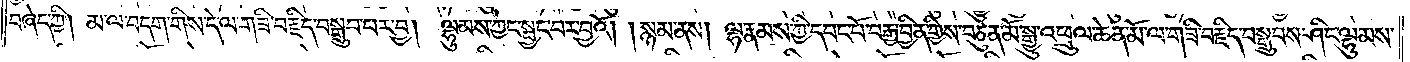བཞེད་ཀྱི། མ་ལ་བདག་གིས་དེ་ལ་གཟི་བརྗིད་བསྒྲུབ་པར་བྱ། ལྷུམས་ཀྱང་སྦྱང་བར་བྱའོ། །སྙམ་ནས། ལྷ་རྣམས་ཀྱི་དབང་པོ་བརྒྱ་བྱིན་གྱིས་བཙུན་མོ་སྒྱུ་འཕྲུལ་ཆེན་མོ་ལ་གཟི་བརྗིད་བསྒྲུབས་ཤིང་ལྷུམས་
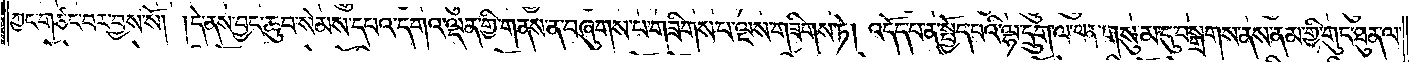ཀྱང་གཙང་བར་བྱས་སོ། །དེ་ནས་བྱང་ཆུབ་སེམས་དཔའ་དགའ་ལྡན་གྱི་གནས་ན་བཞུགས་པ་གཟིགས་པ་ལྔས་གཟིགས་ཏེ། འདོད་པ་ན་སྤྱོད་པའི་ལྷ་དྲུག་ལ་ལན་གསུམ་དུ་བསྒྲགས་ནས་ནམ་གྱི་གུང་ཐུན་ལ་
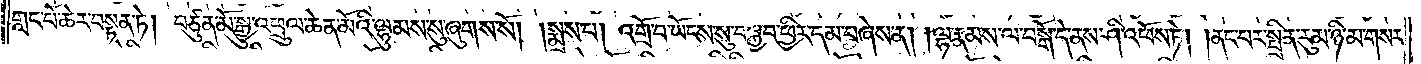གླང་པོ་ཆེར་བསྟན་ཏེ། བཙུན་མོ་སྒྱུ་འཕྲུལ་ཆེན་མོའི་ལྷུམས་སུ་ཞུགས་སོ། །སྨྲས་པ། འགྲོ་བ་ཡོངས་སུ་བསྐྱབ་ཕྱིར་དམ་བཞེས་ན། །ལྷ་རྣམས་ལ་བསྒོ་དེ་ནས་ཤི་འཕོས་ཏེ། །ནང་པར་སྤྲིན་རུམ་ཉི་མ་གསར་
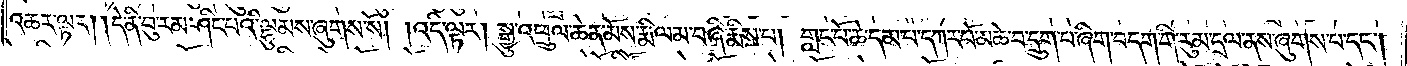འཆར་ལྟར། །དེ་ནི་བུ་རམ་ཤིང་པའི་ལྷུམས་ཞུགས་སོ། །འདི་ལྟར། སྒྱུ་འཕྲུལ་ཆེན་མོས་རྨི་ལམ་བཞི་རྨིས་པ། གླང་པོ་ཆེ་དམ་པ་དཀར་པོ་མཆེ་བ་དྲུག་པ་ཞིག་བདག་གི་རུམ་དྲལ་ནས་ཞུགས་བ་དང༌།
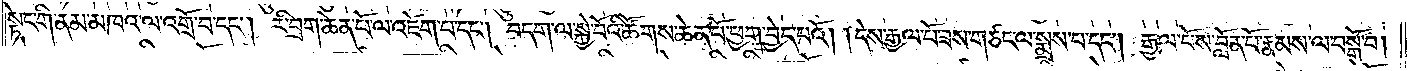སྟེང་གི་ནམ་མཁའ་ལ་འགྲོ་བ་དང༌། རི་བྲག་ཆེན་པོ་ལ་འཛེག་པ་དང༌། བདག་ལ་སྐྱེ་བོའི་ཚོགས་ཆེན་པོ་ཕྱག་བྱེད་པའོ། །དེས་རྒྱལ་པོ་ཟས་གཙང་ལ་སྨྲས་པ་དང༌། རྒྱལ་པོས་བློན་པོ་རྣམས་ལ་བསྒོ་བ།
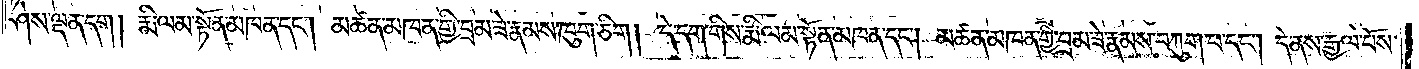ཤེས་ལྡན་དག །རྨི་ལམ་སྟོན་མཁན་དང༌། མཚན་མཁན་གྱི་བྲམ་ཟེ་རྣམས་ཁུག་ཅིག། དེ་དག་གིས་རྨི་ལམ་སྟོན་མཁན་དང༌། མཚན་མཁན་གྱི་བྲམ་ཟེ་རྣམས་བཀུག་པ་དང༌། དེ་ནས་རྒྱལ་པོས་
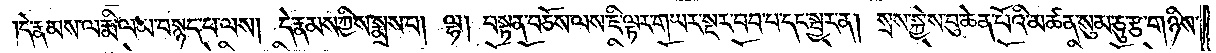དེ་རྣམས་ལ་རྨི་ལམ་བསྙད་པ་ལས། དེ་རྣམས་ཀྱིས་སྨྲས་པ། ལྷ། བསྟན་བཅོས་ལས་ཇི་ལྟར་གཡར་སྔར་བབ་པ་དང་སྦྱར་ན། སྲས་སྐྱེས་བུ་ཆེན་པོའི་མཚན་སུམ་ཅུ་རྩ་གཉིས་
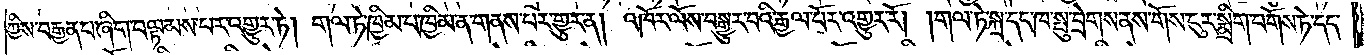ཀྱིས་བརྒྱན་པ་ཞིག་བལྟམས་པར་འགྱུར་ཏེ། གལ་ཏེ་ཁྱིམ་པ་ཁྱིམ་ན་གནས་པར་གྱུར་ན། འཁོར་ལོས་བསྒྱུར་བའི་རྒྱལ་པོར་འགྱུར་རོ། །གལ་ཏེ་སྐྲ་དང་ཁ་སྤུ་བྲེགས་ནས་གོས་ངུར་སྨྲིག་བགོས་ཏེ་དད་
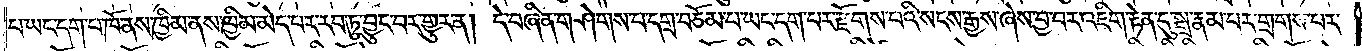པ་ཡང་དག་པ་ཁོ་ནས་ཁྱིམ་ནས་ཁྱིམ་མེད་པར་རབ་ཏུ་བྱུང་བར་གྱུར་ན། དེ་བཞིན་གཤེགས་པ་དགྲ་བཅོམ་པ་ཡང་དག་པར་རྫོགས་པའི་སངས་རྒྱས་ཞེས་བྱ་བར་འཇིག་རྟེན་དུ་སྒྲ་རྣམ་པར་གྲགས་པར་
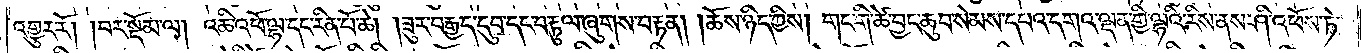འགྱུར་རོ། །བར་སྡོམ་ལ། འཆི་འཕོ་ལྷ་དང་རིན་པོ་ཆེ། །ཟུར་བརྒྱད་དུབ་དང་བརྟུལ་ཞུགས་བརྟན། །ཆོས་ཉིད་ཀྱིས། གང་གི་ཚེ་བྱང་ཆུབ་སེམས་དཔའ་དགའ་ལྡན་གྱི་ལྷའི་རིས་ནས་ཤི་འཕོས་ཏེ་
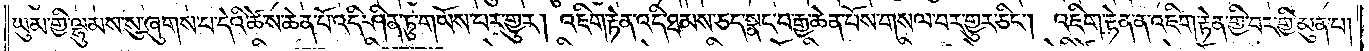ཡུམ་གྱི་ལྷུམས་སུ་ཞུགས་པ་དེའི་ཚེ་ས་ཆེན་པོ་འདི་ཤིན་ཏུ་གཡོས་པར་གྱུར། འཇིག་རྟེན་འདི་ཐམས་ཅད་སྣང་བ་རྒྱ་ཆེན་པོས་གསལ་བར་གྱུར་ཅིང༌། འཇིག་རྟེན་ན་འཇིག་རྟེན་གྱི་བར་གྱི་མུན་པ།
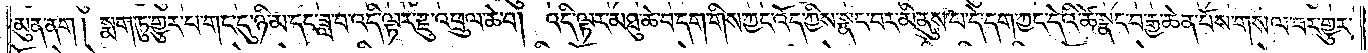མུན་ནག། སྨག་ཏུ་རྒྱུ་པ་གང་དུ་ཉི་མ་དང་ཟླ་བ་འདི་ལྟར་རྫུ་འཕྲུལ་ཆེ་བ། འདི་ལྟར་མཐུ་ཆེ་བ་དག་གིས་ཀྱང་འོད་ཀྱིས་སྣང་བར་མི་ནུས་པ་དེ་དག་ཀྱང་དེའི་ཚེ་སྣང་བརྒྱ་ཆེན་པོས་གསལ་བར་གྱུར་
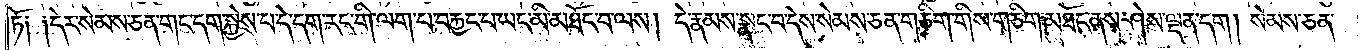ཏོ། །དེར་སེམས་ཅན་གང་དག་སྐྱེས་པ་དེ་དག་རང་གི་ལག་པ་བརྐྱང་པ་ཡང་མི་མཐོང་བ་ལས། དེ་རྣམས་སྣང་བ་དེས་སེམས་ཅན་གཅིག་གིས་གཅིག་མཐོང་ནས་ཤེས་ལྡན་དག །སེམས་ཅན་
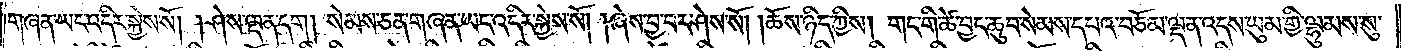གཞན་ཡང་འདིར་སྐྱེས་སོ། །ཤེས་ལྡན་དག །སེམས་ཅན་གཞན་ཡང་འདིར་སྐྱེས་སོ། །ཞེས་བྱ་བར་ཤེས་སོ། །ཆོས་ཉིད་ཀྱིས། གང་གི་ཚེ་བྱང་ཆུབ་སེམས་དཔའ་བཅོམ་ལྡན་འདས་ཡུམ་གྱི་ལྷུམས་སུ་
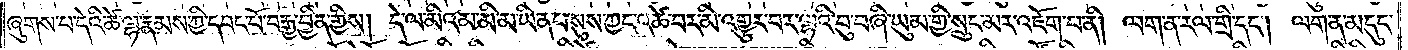ཞུགས་པ་དེའི་ཚེ་ལྷ་རྣམས་ཀྱི་དབང་པོ་བརྒྱ་བྱིན་གྱིས། དེ་ལ་མིའམ་མི་མ་ཡིན་པ་སུས་ཀྱང་འཚེ་བར་མི་འགྱུར་བར་ལྷའི་བུ་བཞི་ཡུམ་གྱི་སྲུང་མར་འཇོག་པ་ནི། ལག་ན་རལ་གྲི་དང༌། ལག་ན་མདུང་
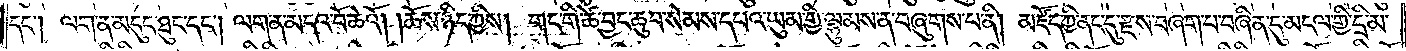དང༌། ལག་ན་མདུང་ཐུང་དང༌། ལག་ན་མདའ་བོ་ཆེའོ། །ཆོས་ཉིད་ཀྱིས། གང་གི་ཚེ་བྱང་ཆུབ་སེམས་དཔའ་ཡུམ་གྱི་ལྷུམས་ན་བཞུགས་པ་ནི། མཛོད་ཀྱི་ནང་དུ་རྫས་བཞག་པ་བཞིན་དུ་མངལ་གྱི་དྲི་མ་
